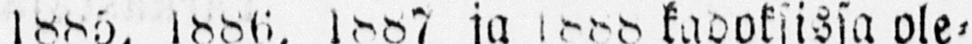wien tuulaakikirjain tähden ja kaupungin-
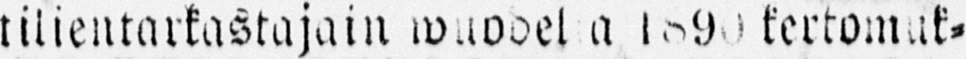tilientarkastajain wuodel a 1890 kertomuk-
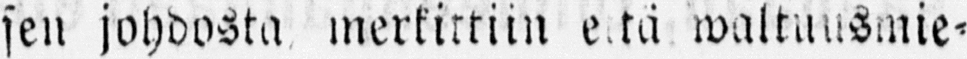sen johdosta merkittiin että waltuusmie-
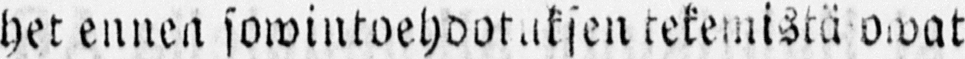het ennen sowintoehdotuksen tekemistä owat
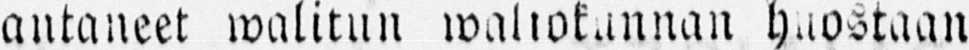autaneet walitun waliokunnan huostaan
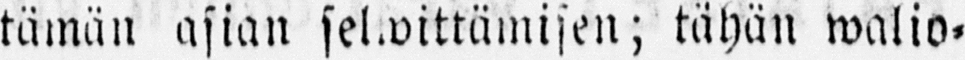tämän asian selwittämisen; tähän walio-
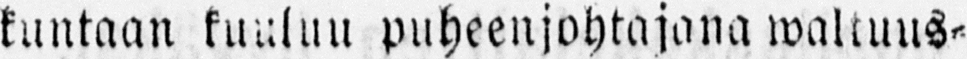kuntaan kuulun puheenjohtajana waltuus-
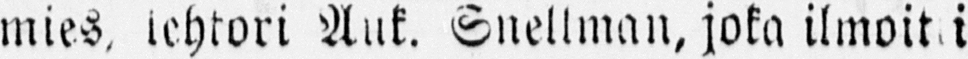mies, lehtori Auk. Snellman, joka ilmoit i
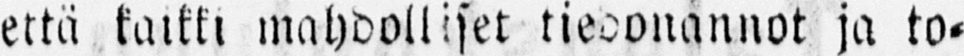että kaikki mahdolliset tiedonannot ja to-
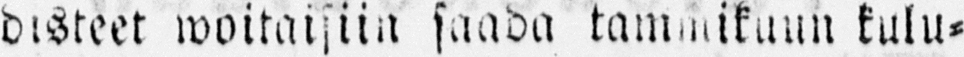disteet woitaisiin saada tammikuun kulu-
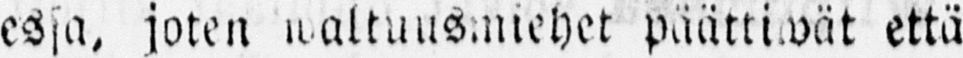essa, joten waltuusmiehet päättiwät että
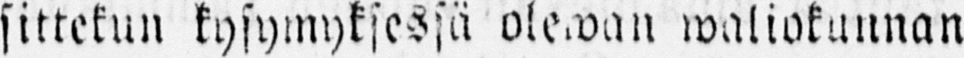sittekun kysymyksessä olewan waliokunnan
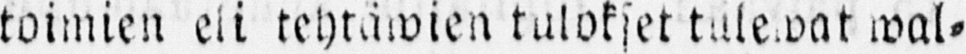toimien eli tehtäwien tulokset tulewat wal-
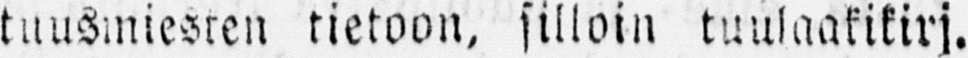tuusmiesten tietoon, silloin tuulaakikirj.
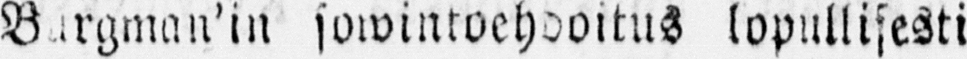Bargman'in sowintoehdoitus lopullisesti
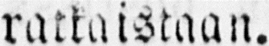rakkaistaan.
